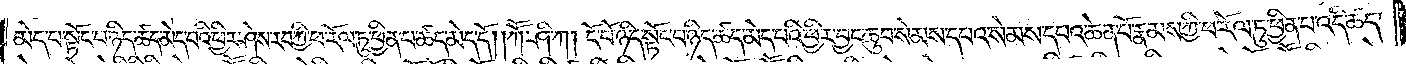མེད་པ་སྟོང་པ་ཉིད་ཚད་མེད་པའི་ཕྱིར་ཤེས་རབ་ཀྱི་ཕ་རོལ་ཏུ་ཕྱིན་པ་ཚད་མེད་དོ། །ཀཽ་ཤི་ཀ། ངོ་བོ་ཉིད་སྟོང་པ་ཉིད་ཚད་མེད་པའི་ཕྱིར་བྱང་ཆུབ་སེམས་དཔའ་སེམས་དཔའ་ཆེན་པོ་རྣམས་ཀྱི་ཕ་རོལ་ཏུ་ཕྱིན་པ་འདི་ཚད་
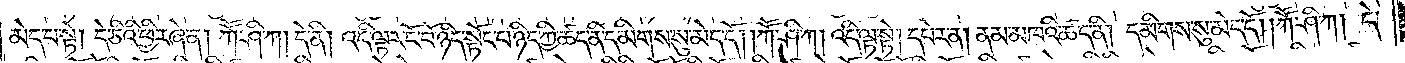མེད་པ་སྟེ། དེ་ཅིའི་ཕྱིར་ཞེ་ན། ཀཽ་ཤི་ཀ། དེ་ནི། འདི་ལྟར་ངོ་བོ་ཉིད་སྟོང་པ་ཉིད་ཀྱི་ཚད་ནི་དམིགས་སུ་མེད་དོ། །ཀཽ་ཤི་ཀ། འདི་ལྟ་སྟེ། དཔེར་ན། ནམ་མཁའི་ཚད་ནི། དམིགས་སུ་མེད་དོ། །ཀཽ་ཤི་ཀ། དེ་
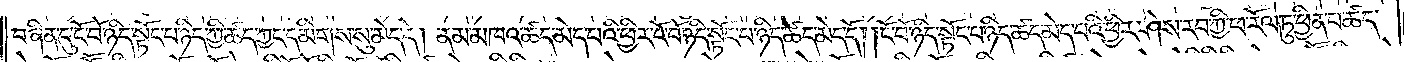བཞིན་དུ་ངོ་བོ་ཉིད་སྟོང་པ་ཉིད་ཀྱི་ཚད་ཀྱང་དམིགས་སུ་མེད་དེ། ནམ་མཁའ་ཚད་མེད་པའི་ཕྱིར་ངོ་བོ་ཉིད་སྟོང་པ་ཉིད་ཚད་མེད་དོ། །ངོ་བོ་ཉིད་སྟོང་པ་ཉིད་ཚད་མེད་པའི་ཕྱིར་ཤེས་རབ་ཀྱི་ཕ་རོལ་ཏུ་ཕྱིན་པ་ཚད་
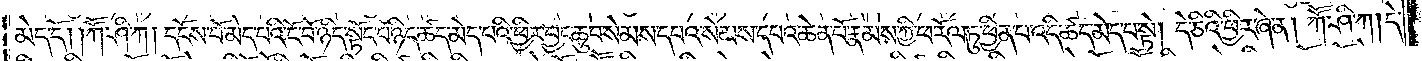མེད་དོ། །ཀཽ་ཤི་ཀ། དངོས་པོ་མེད་པའི་ངོ་བོ་ཉིད་སྟོང་པ་ཉིད་ཚད་མེད་པའི་ཕྱིར་བྱང་ཆུབ་སེམས་དཔའ་སེམས་དཔའ་ཆེན་པོ་རྣམས་ཀྱི་ཕ་རོལ་ཏུ་ཕྱིན་པ་འདི་ཚད་མེད་པ་སྟེ། དེ་ཅིའི་ཕྱིར་ཞེ་ན། ཀཽ་ཤི་ཀ། དེ་
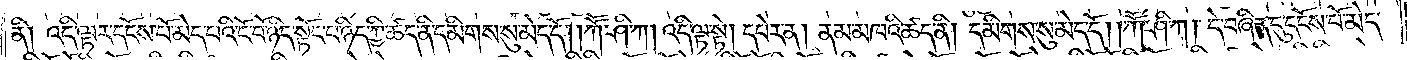ནི། འདི་ལྟར་དངོས་པོ་མེད་པའི་ངོ་བོ་ཉིད་སྟོང་པ་ཉིད་ཀྱི་ཚད་ནི་དམིགས་སུ་མེད་དོ། །ཀཽ་ཤི་ཀ། འདི་ལྟ་སྟེ། དཔེར་ན། ནམ་མཁའི་ཚད་ནི། དམིགས་སུ་མེད་དོ། །ཀཽ་ཤི་ཀ། དེ་བཞིན་དུ་དངོས་པོ་མེད་
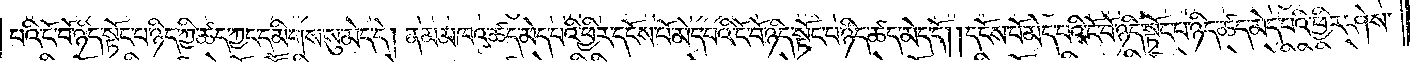པའི་ངོ་བོ་ཉིད་སྟོང་པ་ཉིད་ཀྱི་ཚད་ཀྱང་དམིགས་སུ་མེད་དེ། ནམ་མཁའ་ཚད་མེད་པའི་ཕྱིར་དངོས་པོ་མེད་པའི་ངོ་བོ་ཉིད་སྟོང་པ་ཉིད་ཚད་མེད་དོ། །དངོས་པོ་མེད་པའི་ངོ་བོ་ཉིད་སྟོང་པ་ཉིད་ཚད་མེད་པའི་ཕྱིར་ཤེས་
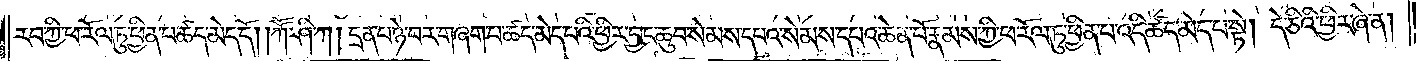རབ་ཀྱི་ཕ་རོལ་ཏུ་ཕྱིན་པ་ཚད་མེད་དོ། །ཀཽ་ཤི་ཀ། དྲན་པ་ཉེ་བར་གཞག་པ་ཚད་མེད་པའི་ཕྱིར་བྱང་ཆུབ་སེམས་དཔའ་སེམས་དཔའ་ཆེན་པོ་རྣམས་ཀྱི་ཕ་རོལ་ཏུ་ཕྱིན་པ་འདི་ཚད་མེད་པ་སྟེ། དེ་ཅིའི་ཕྱིར་ཞེ་ན།
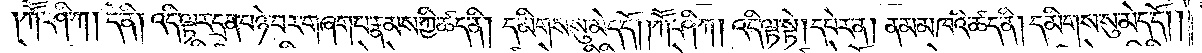ཀཽ་ཤི་ཀ། དེ་ནི། འདི་ལྟར་དྲན་པ་ཉེ་བར་གཞག་པ་རྣམས་ཀྱི་ཚད་ནི། །དམིགས་སུ་མེད་དོ། །ཀཽ་ཤི་ཀ། འདི་ལྟ་སྟེ་། དཔེར་ན། ནམ་མཁའི་ཚད་ནི། དམིགས་སུ་མེད་དོ༎
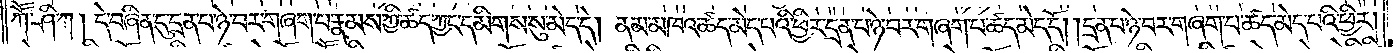ཀཽ་ཤི་ཀ། དེ་བཞིན་དུ་དྲན་པ་ཉེ་བར་གཞག་པ་རྣམས་ཀྱི་ཚད་ཀྱང་དམིགས་སུ་མེད་དེ། ནམ་མཁའ་ཚད་མེད་པའི་ཕྱིར་དྲན་པ་ཉེ་བར་གཞག་པ་ཚད་མེད་དོ། །དྲན་པ་ཉེ་བར་གཞག་པ་ཚད་མེད་པའི་ཕྱིར་
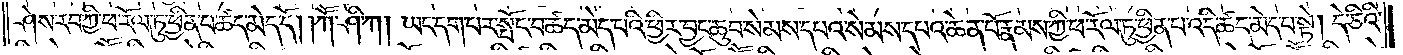ཤེས་རབ་ཀྱི་ཕ་རོལ་ཏུ་ཕྱིན་པ་ཚད་མེད་དོ། །ཀཽ་ཤི་ཀ། ཡང་དག་པར་དཔོང་བ་ཚད་མེད་པའི་ཕྱིར་བྱང་ཆུབ་སེམས་དཔའ་སེམས་དཔའ་ཆེན་པོ་རྣམས་ཀྱི་ཕ་རོལ་ཏུ་ཕྱིན་པ་འདི་ཚད་མེད་པ་སྟེ། དེ་ཅིའི་
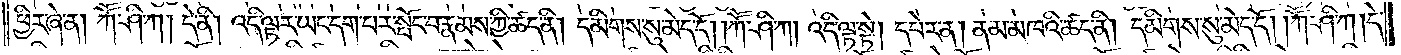ཕྱིར་ཞེ་ན། ཀཽ་ཤི་ཀ། དེ་ནི། འདི་ལྟར་ཡང་དག་པར་སྤོང་བ་རྣམས་ཀྱི་ཚད་ནི། དམིགས་སུ་མེད་དོ། །ཀཽ་ཤི་ཀ། འདི་ལྟ་སྟེ། དཔེར་ན། ནམ་མཁའི་ཚད་ནི། དམིགས་སུ་མེད་དོ། །ཀཽ་ཤི་ཀ། དེ་
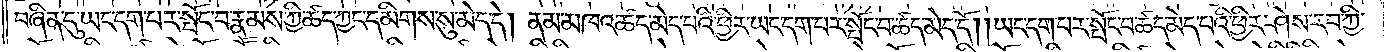བཞིན་དུ་ཡང་དག་པར་སྤོང་བ་རྣམས་ཀྱི་ཚད་ཀྱང་དམིགས་སུ་མེད་དེ། ནམ་མཁའ་ཚད་མེད་པའི་ཕྱིར་ཡང་དག་པར་སྤོང་བ་ཚད་མེད་དོ། །ཡང་དག་པར་སྤོང་བ་ཚད་མེད་པའི་ཕྱིར་ཤེས་རབ་ཀྱི་
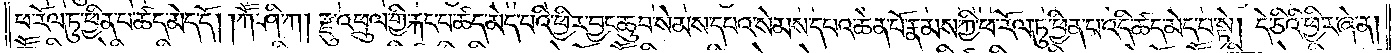ཕ་རོལ་ཏུ་ཕྱིན་པ་ཚད་མེད་དོ། །ཀཽ་ཤི་ཀ། རྫུ་འཕྲུལ་གྱི་རྐང་པ་ཚད་མེད་པའི་ཕྱིར་བྱང་ཆུབ་སེམས་དཔའ་སེམས་དཔའ་ཆེན་པོ་རྣམས་ཀྱི་ཕ་རོལ་ཏུ་ཕྱིན་པ་འདི་ཚད་མེད་པ་སྟེ། དེ་ཅིའི་ཕྱིར་ཞེ་ན།
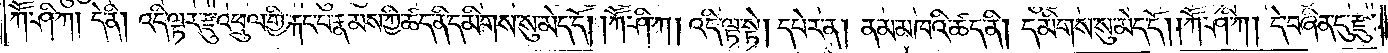ཀཽ་ཤི་ཀ། དེ་ནི། འདི་ལྟར་རྫུ་འཕྲུལ་གྱི་རྐང་པ་རྣམས་ཀྱི་ཚད་ནི་དམིགས་སུ་མེད་དོ། །ཀཽ་ཤི་ཀ། འདི་ལྟ་སྟེ། དཔེར་ན། ནམ་མཁའི་ཚད་ནི། དམིགས་སུ་མེད་དོ། །ཀཽ་ཤི་ཀ། དེ་བཞིན་དུ་རྫུ་
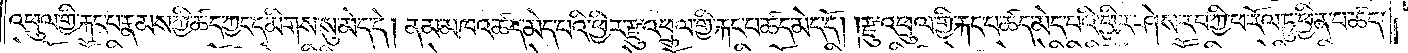འཕྲུལ་གྱི་རྐང་པ་རྣམས་ཀྱི་ཚད་ཀྱང་དམིགས་སུ་མེད་དེ། ནམ་མཁའ་ཚད་མེད་པའི་ཕྱིར་རྫུ་འཕྲུལ་གྱི་རྐང་པ་ཚད་མེད་དོ། །རྫུ་འཕྲུལ་གྱི་རྐང་པ་ཚད་མེད་པའི་ཕྱིར་ཤེས་རབ་ཀྱི་ཕ་རོལ་ཏུ་ཕྱིན་པ་ཚད་
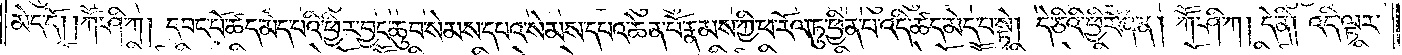མེད་དོ། །ཀཽ་ཤི་ཀ། དབང་པོ་ཚད་མེད་པའི་ཕྱིར་བྱང་ཆུབ་སེམས་དཔའ་སེམས་དཔའ་ཆེན་པོ་རྣམས་ཀྱི་ཕ་རོལ་ཏུ་ཕྱིན་པ་འདི་ཚད་མེད་པ་སྟེ། དེ་ཅིའི་ཕྱིར་ཞེ་ན། ཀཽ་ཤི་ཀ། དེ་ནི། འདི་ལྟར་
